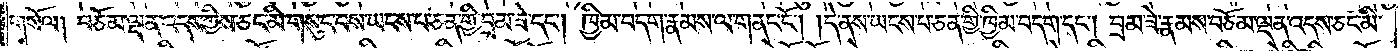གསོལ། བཅོམ་ལྡན་འདས་ཀྱིས་ཅང་མི་གསུང་བས་ཡངས་པ་ཅན་གྱི་བྲམ་ཟེ་དང༌། ཁྱིམ་བདག་རྣམས་ལ་གནང་ངོ༌། །དེ་ནས་ཡངས་པ་ཅན་གྱི་ཁྱིམ་བདག་དང༌། བྲམ་ཟེ་རྣམས་བཅོམ་ལྡན་འདས་ཅང་མི་
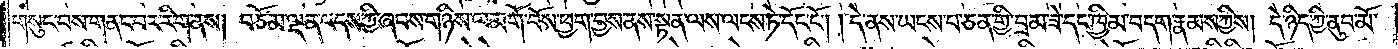གསུང་བས་གནང་བར་རིག་ནས། བཅོམ་ལྡན་འདས་ཀྱི་ཞབས་གཉིས་ལ་མགོ་བོས་ཕྱག་བྱས་ནས་སྟན་ལས་ལངས་ཏེ་དོང་ངོ༌། །དེ་ནས་ཡངས་པ་ཅན་གྱི་བྲམ་ཟེ་དང་ཁྱིམ་བདག་རྣམས་ཀྱིས། དེ་ཉིད་ཀྱི་ནུབ་མོ་
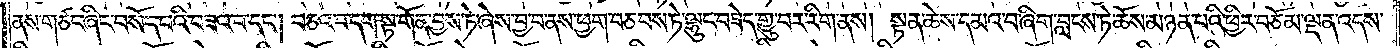ནས་གཙང་ཞིང་བསོད་པའི་བཟའ་བ་དང༌། བཅའ་བ་དག་སྟ་གོན་བྱས་ཏེ་ཞེས་བྱ་བ་ནས་ཕྱག་བཅབས་ཏེ་ལྷུང་བཟེད་གྱུ་བར་རིག་ནས། སྟན་ཆེས་དམའ་བ་ཞིག་བླངས་ཏེ་ཆོས་མཉན་པའི་ཕྱིར་བཅོམ་ལྡན་འདས་
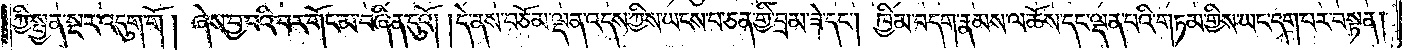ཀྱི་སྤྱན་སྔར་འདུག་གོ །ཞེས་བྱ་བའི་བར་གོང་མ་བཞིན་དུའོ། །དེ་ནས་བཅོམ་ལྡན་འདས་ཀྱིས་ཡངས་པ་ཅན་གྱི་བྲམ་ཟེ་དང༌། ཁྱིམ་བདག་རྣམས་ལ་ཆོས་དང་ལྡན་པའི་གཏམ་གྱིས་ཡང་དག་པར་བསྟན།
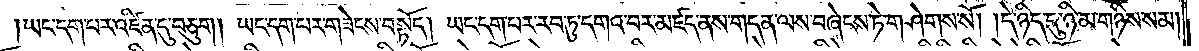ཡང་དག་པར་འཛིན་དུ་བཅུག། ཡང་དག་པར་གཟེངས་བསྟོད། ཡང་དག་པར་རབ་ཏུ་དགའ་བར་མཛད་ནས་གདན་ལས་བཞེངས་ཏེ་གཤེགས་སོ། །དེ་ཉིད་དུ་ཉི་མ་གཉིས་སམ།
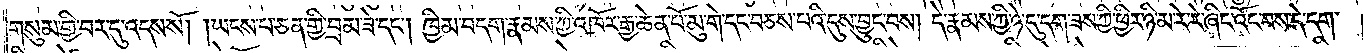གསུམ་གྱི་བར་དུ་འདས་སོ། །ཡངས་པ་ཅན་གྱི་བྲམ་ཟེ་དང༌། ཁྱིམ་བདག་རྣམས་ཀྱི་འཁོར་རྒྱ་ཆེན་པོ་མུ་གེ་དང་བཅས་པའི་དུས་བྱུང་བས། དེ་རྣམས་ཀྱི་ཉེ་དུ་དག་ཟས་ཀྱི་ཕྱིར་ཉི་མ་རེ་རེ་ཞིང་འོང་བས་དེ་དག་
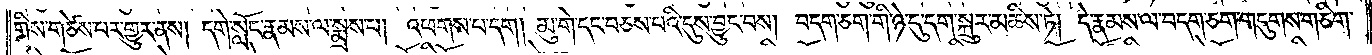གིས་གཙེས་པར་གྱུར་ནས། དགེ་སློང་རྣམས་ལ་སྨྲས་པ། འཕགས་པ་དག། མུ་གེ་དང་བཅས་པའི་དུས་བྱུང་བས། བདག་ཅག་གི་ཉེ་དུ་དག་སྐྲུར་མཆིས་ཏེ། དེ་རྣམས་ལ་བདག་ཅག་གདུགས་གཅིག་
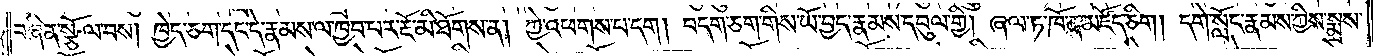བཞིན་སྩོལ་བས། ཁྱེད་ཅག་དང་དེ་རྣམས་ལ་ཁྱབ་པར་རྔོ་མི་ཐོགས་ན། ཀྱེ་འཕགས་པ་དག། བདག་ཅག་གིས་ཡོ་བྱད་རྣམས་དབུལ་གྱི། ཞལ་ཏ་ཁོ་ན་མཛོད་ཅིག། དགེ་སློང་རྣམས་ཀྱིས་སྨྲས་
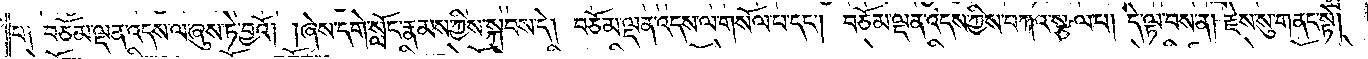པ༑ བཅོམ་ལྡན་འདས་ལ་ཞུས་ཏེ་བྱའོ། །ཞེས་དགེ་སློང་རྣམས་ཀྱིས་སྐབས་དེ། བཅོམ་ལྡན་འདས་ལ་གསོལ་པ་དང༌། བཅོམ་ལྡན་འདས་ཀྱིས་བཀའ་སྩལ་པ། དེ་ལྟ་བས་ན། རྗེས་སུ་གནང་སྟེ།
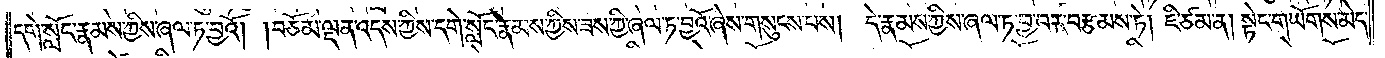དགེ་སློང་རྣམས་ཀྱིས་ཞལ་ཏ་བྱའོ། །བཅོམ་ལྡན་འདས་ཀྱིས་དགེ་སློང་རྣམས་ཀྱིས་ཟས་ཀྱི་ཞལ་ཏ་བྱའོ་ཞེས་གསུངས་པས། དེ་རྣམས་ཀྱིས་ཞལ་ཏ་བྱ་བར་བརྩམས་ཏེ། ཇི་ཙམ་ན། སྟེང་གཡོགས་མེད་
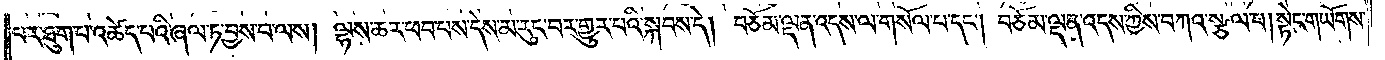པར་ཐུག་པ་འཚེད་པའི་ཞལ་ཏ་བྱས་པ་ལས། ལྷས་ཆར་ཕབ་པས་དེས་མ་རུང་བར་གྱུར་པའི་སྐབས་དེ། བཅོམ་ལྡན་འདས་ལ་གསོལ་པ་དང༌། བཅོམ་ལྡན་འདས་ཀྱིས་བཀའ་སྩལ་པ། སྟེང་གཡོགས་
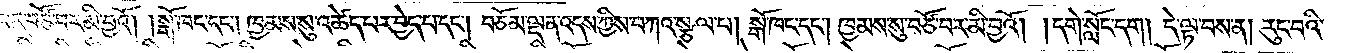པར་བཙོ་བར་མི་བྱའོ། །སྒོ་ཁང་དང༌། ཁྱམས་སུ་འཚེད་པར་བྱེད་པ་དང༌། བཅོམ་ལྡན་འདས་ཀྱིས་བཀའ་སྩལ་པ། སྒོ་ཁང་དང༌། ཁྱམས་སུ་བཙོ་བར་མི་བྱའོ། །དགེ་སློང་དག། དེ་ལྟ་བས་ན། རུང་བའི་
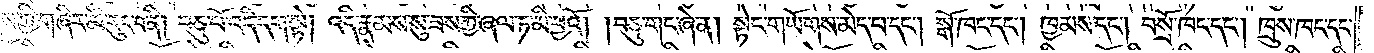གནས་ཀྱི་གཞིར་མི་རུང་བ་ནི། བཅུ་པོ་འདི་དག་སྟེ། འདི་རྣམས་སུ་ཟས་ཀྱི་ཞལ་ཏ་མི་བྱའོ། །བཅུ་གང་ཞེ་ན། སྟེང་གཡོགས་མེད་པ་དང༌། སྒོ་ཁང་དང༌། ཁྱམས་དང༌། བསྲོ་ཁང་དང༌། ཁྲུས་ཁང་དང་
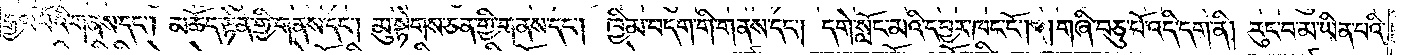རྒྱལ་པོའི་གནས་དང༌། མཆོད་རྟེན་གྱི་གནས་དང༌། མུ་སྟེགས་ཅན་གྱི་གནས་དང༌། ཁྱིམ་བདག་གི་གནས་དང༌། དགེ་སློང་མའི་དབྱར་ཁང་ངོ༌། །གཞི་བཅུ་པོ་འདི་དག་ནི། རུང་བ་མ་ཡིན་པའི་
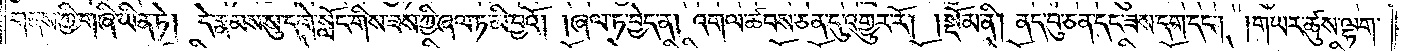གནས་ཀྱི་གཞི་ཡིན་ཏེ། དེ་རྣམས་སུ་དགེ་སློང་གིས་ཟས་ཀྱི་ཞལ་ཏ་མི་བྱའོ། །ཞལ་ཏ་བྱེད་ན། འགལ་ཚབས་ཅན་དུ་འགྱུར་རོ།    །སྡོམ་ནི། ནད་བུ་ཅན་དང་ཟས་དག་དང༌། གཡར་ཚུས་ལྷག་
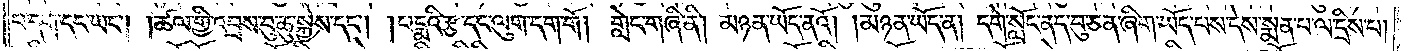པ་དག་དང་ཡང༌། །ཚལ་གྱི་འབྲས་བུ་ཆུ་སྐྱེས་དང༌། །པདྨའི་རྩ་དང་ལུག་དག་གོ། གླེང་གཞི་ནི། མཉན་ཡོད་ནའོ། །མཉན་ཡོད་ན། དགེ་སློང་ནད་བུ་ཅན་ཞིག་ཡོད་པས་དེས་སྨན་པ་ལ་དྲིས་པ།
